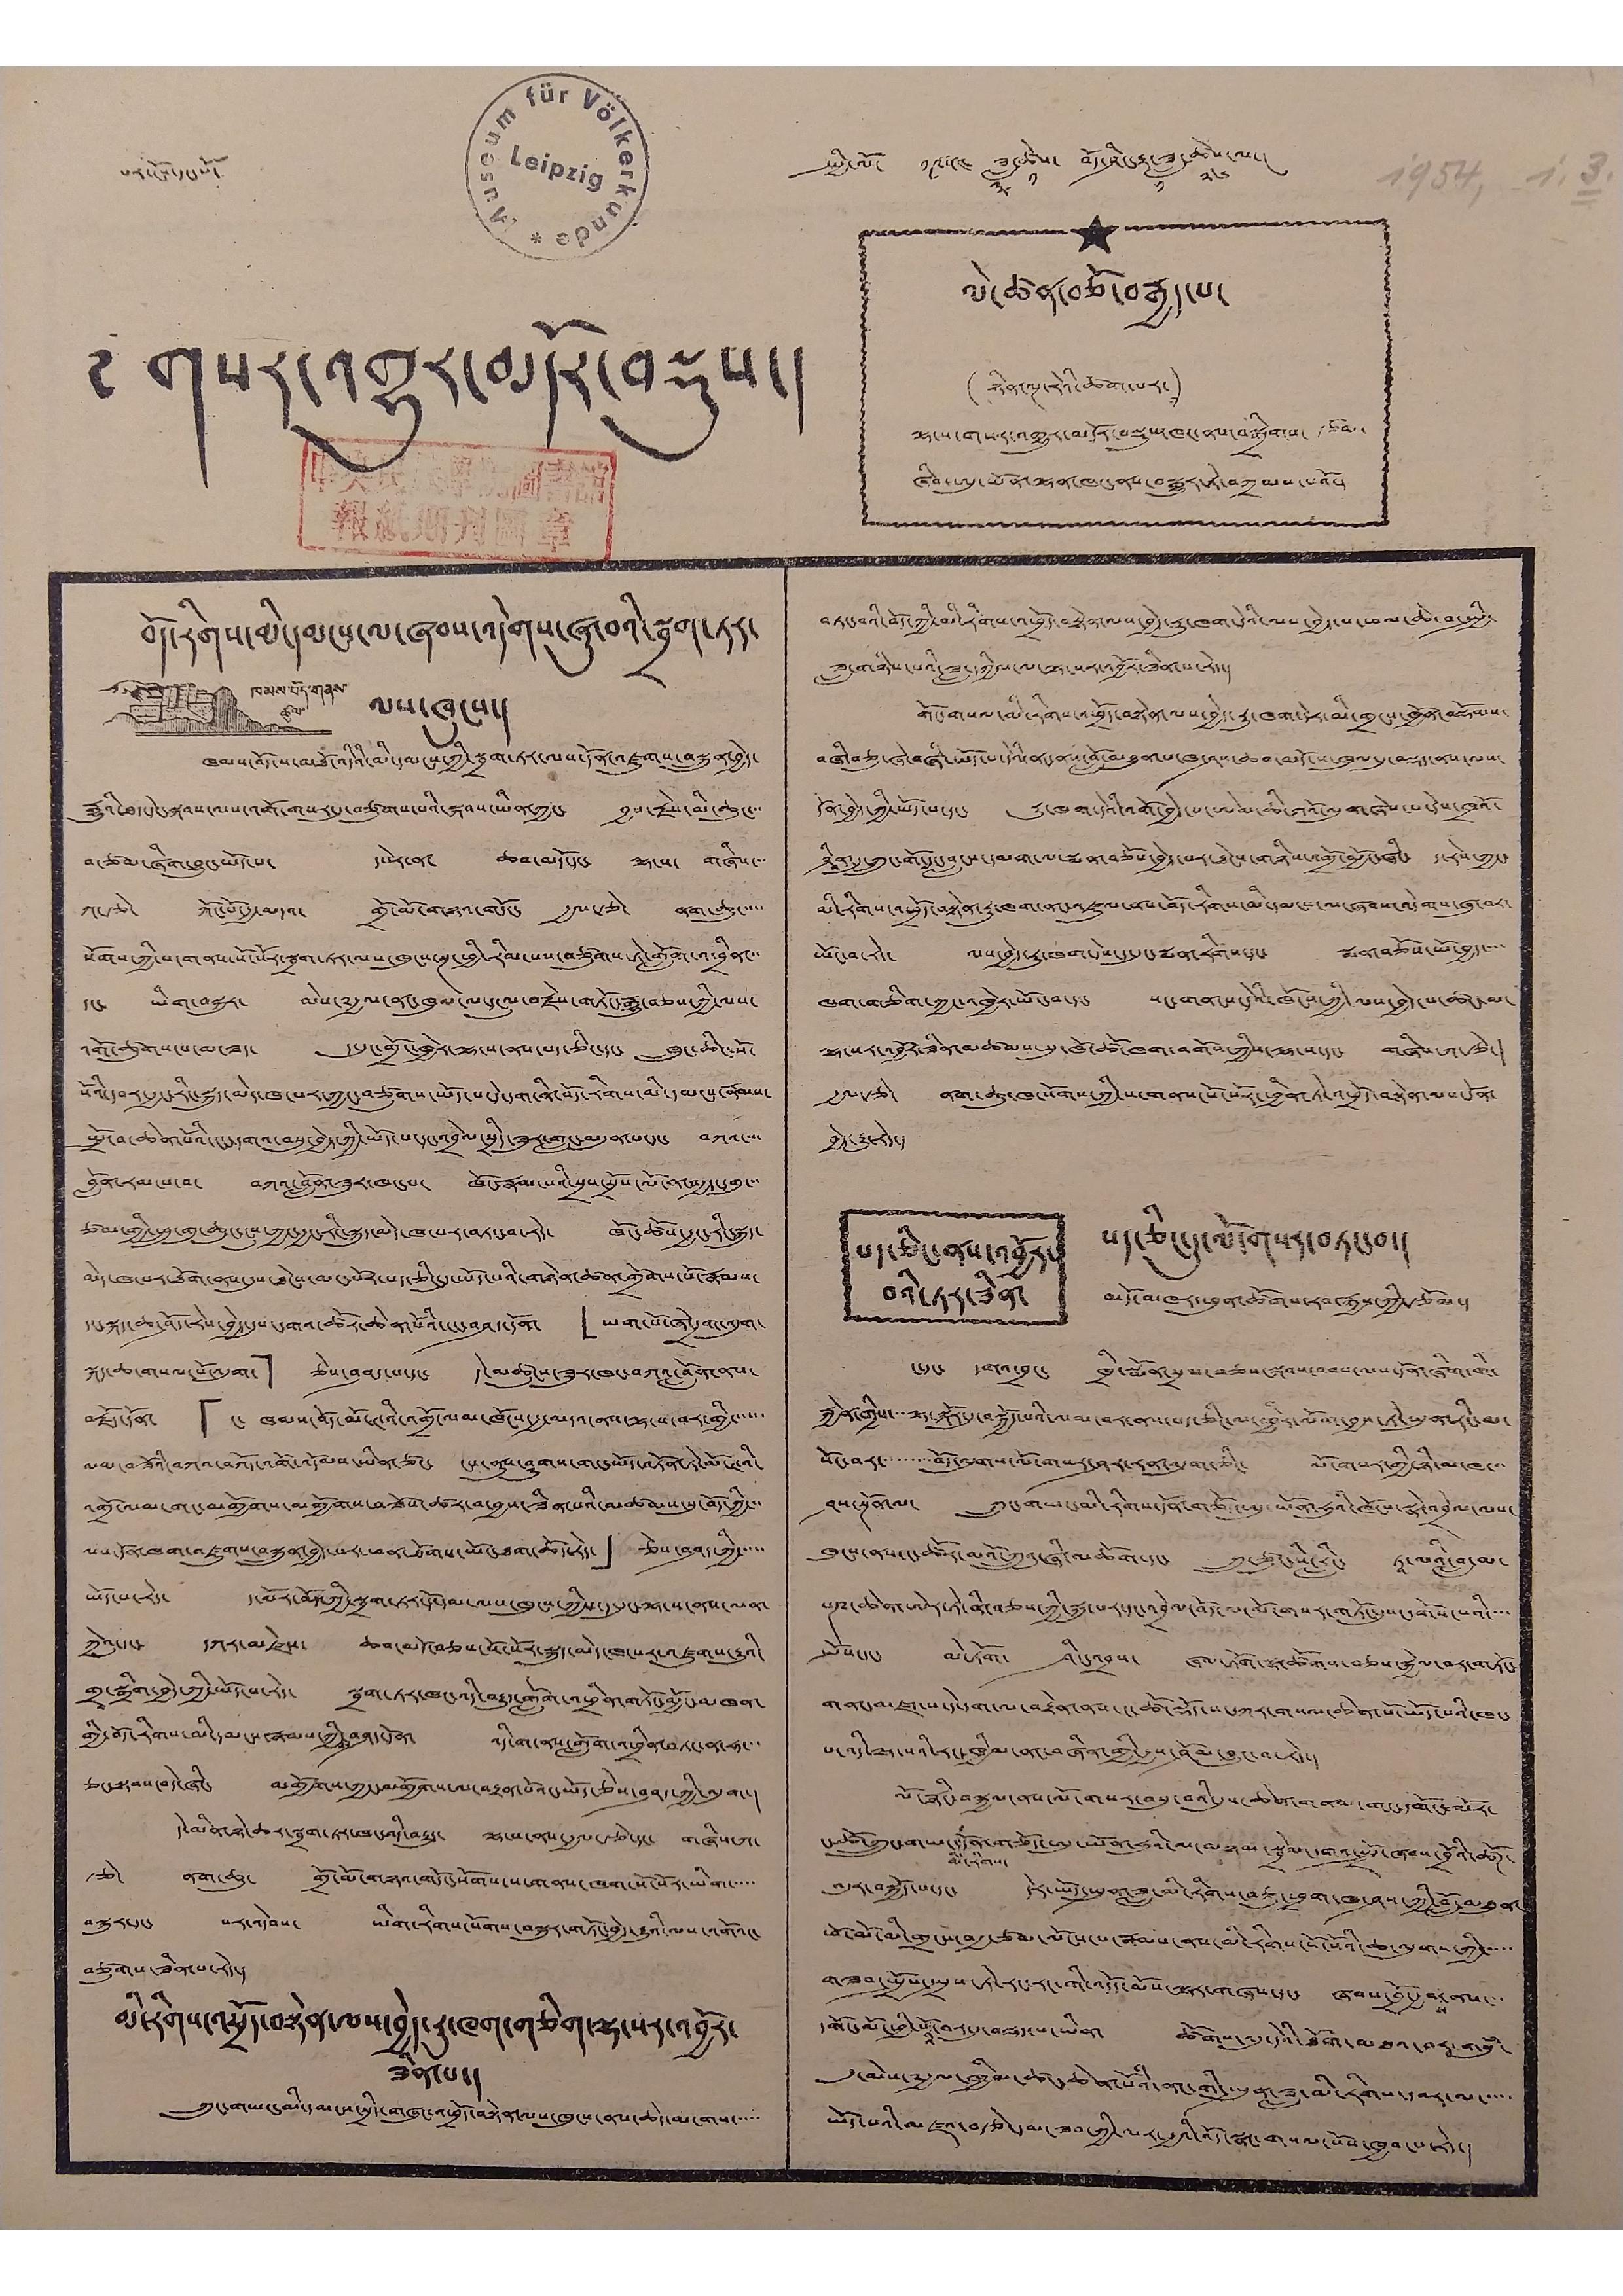པར་ངོས་དང་པོ་ སྤྱི་ལོ་ ༡༩༥༤ ཟླ་
༣
ཚེས་
༡
བོད་ཤིང་རྟ་ཟླ་
༡
ཚེས་
༢༦
ལ་།
༅ གསར་འགྱུར་མདོར་བསྡུས་།
ལེ་ཚན་བཅོ་བརྒྱད་པ་
(ཉིན་ལྔ་རེའི་ཚག་པར་)
ལྷ་ས་གསར་འགྱུར་མདོར་བསྡུས་ཁང་ནས་བསྒྲིགས་ རྩོམ་
ཞིབ་ཨུ་ཡོན་ལྷན་ཁང་ནས་བསྒྱུར་ཏེ་བཀྲམས་པའོ་།
བོད་རིགས་མི་དམངས་ལ་ཞལ་འདེགས་ཞུ་བའི་སྦྲག་ཏར་
ལས་ཁུངས་།
ཁམས་བོད་གཞས་
ཚུལ་
ཁམས་བོད་ས་མཐོ་འདིའི་མི་དམངས་ཀྱི་སྦྲག་ཏར་ལས་དོན་འཛུགས་བསྐྲུན་བྱེད་
རྒྱུའི་ཐད་དེང་སྐབས་ལས་འགོ་གསར་དུ་བཙུགས་པའི་སྐབས་ཡིན་ཀྱང་ བྱས་རྗེས་མི་ཆུང་་་
བ་ཙམ་ཞིག་བྱུང་ཡོད་པ་ དཔེར་ན་ ཆབ་མདོ་དང་ ལྷ་ས་ གཞིས་་
ཀ་རྩེ་ ཀོང་པོ་རྒྱ་མདའ་ གྲོ་མོ་གཉའ་གདོང་ རྒྱལ་རྩེ་ ནག་ཆུ་་་་་
སོགས་ཀྱི་ས་གནས་སོ་སོར་སྦྲག་ཏར་ལས་ཁུངས་སྔ་ཕྱི་རིམ་པས་བཙུགས་ཏེ་གློག་འཕྲིན་་་
དང་ ཡིག་བསྐུར་ མེས་༸རྒྱལ་ནང་ཁུལ་ལ་དངུལ་བརྗེས་གཏོང་རྒྱུ་བཅས་ཀྱི་ལས་
འགོ་ཚུགས་པ་མ་ཟད་ ད་དུང་གྲོང་ཁྱེར་ལྷ་ས་ནས་པད་ཅིང་ ཁྲུང་ཆིང་སོ་
སོའི་དབར་རྒྱང་རིང་སྐུད་མེད་ཁ་པར་ཀྱང་བཙུགས་ཡོད་པ་དེ་དག་ནི་བོད་རིགས་མི་དམངས་རྣམས་
སྤྲོ་བ་ཆེན་པོའི་ངང་དགའ་བསུ་བྱེད་ཀྱི་ཡོད་པ་དང་འབྲེལ་སྲིད་ཟུར་གླང་མདུན་པ་དང་ བཀའ་་
བློན་རམ་པ་བ་ བཀའ་བློན་ཟུར་ཁང་པ་ ཁོང་རྣམ་པའི་སྲས་སྲོས་ལོ་ན་བརྒྱད་དགུ་་
ཙམ་གྱི་ཕྲུ་གུ་ཆུང་ངུས་ཀྱང་རྒྱང་རིང་སྐུད་མེད་ཁ་པར་བཏང་བ་རེད་ ཁོང་ཚོས་རྒྱང་རིང་སྐུད་
མེད་ཁ་པར་ཐོག་ནས་དུས་ཐེངས་མང་པོར་པད་ཅིང་དུ་ཡོད་པའི་གཉེན་ཚན་གྲོགས་པོ་རྣམས་
དང་སྐད་ཆ་ཤོད་རེས་བྱེད་དུས་དགའ་ཚོར་ཆེན་པོའི་ངང་བཤད་དོན་ 「ཡག་པོ་ཞེ་དྲག་འདུག་
སྐད་ཆ་གསལ་པོ་འདུག་」 ཅེས་བཤད་པ་དང་ དེ་མཚུངས་ཟུར་ཁང་བཀའ་བློན་ནས་
བརྗོད་དོན་ 「ང་ ཁམས་བོད་མོ་ཊའི་འགྲོ་ལམ་ཁོངས་རྒྱ་མདའ་ནས་ལྷ་ས་བར་གྱི་་་་་་
ལམ་བཟོའི་བཀའ་བཀོད་འགོ་འདོམས་ཡིན་ཙང་ ངས་ནུས་ཤུགས་གང་ཡོད་བཏོན་ཏེ་མོ་ཊའི་
འགྲོ་ལམ་གང་མགྱོགས་མགྱོགས་བཟོས་ཚར་བ་བྱས་ཟིན་པའི་མཚམས་སུ་བོད་ཀྱི་་་
ལས་དོན་ཁག་འཛུགས་བསྐྲུན་བྱེད་པར་ཕན་ཐོགས་ཡོང་ཐག་ཆོད་རེད་」 ཅེས་བཤད་ཀྱི་་་་་
ཡོད་པ་རེད་ ད་ལོར་བོད་ཀྱི་སྦྲག་ཏར་དོ་དམ་ལས་ཁུངས་ཀྱིས་ད་དུང་ལྷ་ས་ནས་ལན་
ཀྲེའུ་དང་ དཀར་མཛེས་ ཆབ་མདོ་བཅས་སོ་སོར་སྐུད་མེད་ཁ་པར་འཛུགས་རྒྱུའི་
གྲྭ་སྒྲིག་བྱེད་ཀྱི་ཡོད་པ་རེད་ སྦྲག་ཏར་ཁང་འདི་བརྒྱུད་གློག་འཕྲིན་གཏོང་མྱོང་མཁན་
གྱི་བོད་རིགས་མི་དམངས་རྣམས་ཀྱིས་བཤད་དོན་ འདི་ག་ནས་གློག་འཕྲིན་བཏང་ན་ཧ་་་
ཅང་སྟབས་བདེ་ཞིང་ མགྱོགས་ཀྱང་མགྱོགས་ལ་བརྟན་པོའང་ཡོད་ཅེས་བཤད་ཀྱི་འདུག་།
དེ་མིན་ཉེ་ཆར་སྦྲག་ཏར་ཁང་འདི་བརྒྱུད་ ལྷ་ས་ནས་རྒྱལ་རྩེ་དང་ གཞིས་ཀ་
རྩེ་ ནག་ཆུ་ གྲོ་མོ་གཉའ་གདོང་སོགས་ས་གནས་ཁག་སོ་སོར་ཡིག་་་་་
བསྐུར་དང་ པར་འདེབས་ ཡིག་རིགས་སོགས་བསྐུར་གཏོང་བྱེད་རྒྱུའི་ལས་འགོའང་
བཙུགས་ཟིན་པ་རེད་།
མི་རིགས་འཕྲོད་བསྟེན་ལས་བྱེད་རུ་ཁག་གཅིག་ལྷ་སར་འབྱོར་
ཟིན་པ་།
ཀྲུང་གཡང་མི་དམངས་སྲིད་གཞུང་འཕྲོད་བསྟེན་ལས་ཁུངས་ནས་ཆེད་མངགས་་་་་
བཏང་བའི་བོད་ཀྱི་མི་རིགས་འཕྲོད་བསྟེན་ལས་བྱེད་རྒྱུ་ཁག་དེའི་ལས་བྱེད་པ་ཕལ་ཆེ་བ་སྤྱི་
ཟླ་གཉིས་པའི་ཟླ་དཀྱིལ་ལ་ལྷ་སར་འབྱོར་ཟིན་པ་རེད་།
གོང་གསལ་མི་རིགས་འཕྲོད་བསྟེན་ལས་བྱེད་རུ་ཁག་དེར་མི་གྲངས་ཁྱོན་བསྡོམས་
བཞི་བཅུ་ཞེ་བཞི་ཡོད་པ་དེའི་ནང་ནས་བློ་མཐུན་པ་ཁ་ཤས་ཆབ་མདོ་ས་ཁུལ་དུ་བསྡད་ནས་ལས་
དོན་བྱེད་ཀྱི་ཡོད་པ་དང་ རུ་ཁག་དེའི་འགོ་བྱེད་པ་ཨེམ་ཆི་གའོ་ལུན་ཞེས་པ་དེས་ཁའོ་
ཤིན་དུ་ཀྲུང་གོ་དང་བླངས་དམག་ལ་སྨན་བཅོས་བྱེད་པར་ཐེངས་གཉིས་འགྲོ་མྱོང་ཞིང་ ད་རེས་ཀྱང་
མི་རིགས་འཕྲོད་བསྟེན་རུ་ཁག་ནང་འཛུལ་ནས་བོད་རིགས་མི་དམངས་ལ་ཞབས་འདེགས་ཞུ་བར་
ཡོང་བ་རེད་ ལས་བྱེད་རུ་ཁག་དེས་ད་དུང་སྨན་རིགས་དང་ སྨན་བཅོས་ཡོ་བྱད་་་་
ཁག་གཅིག་ཀྱང་འཁྱེར་ཡོང་བ་དང་ སང་གནངས་དེའི་ཁོངས་ཀྱི་ལས་བྱེད་པ་ཚང་མ་
ལྷ་སར་འབྱོར་ཟིན་མཚམས་སུ་ཁོ་ཚོ་ཁག་བགོས་ཀྱིས་ལྷ་ས་དང་ གཞིས་ཀ་རྩེ་།
རྒྱལ་རྩེ་ ནག་ཆུ་ཁ་སོགས་ཀྱི་ས་གནས་སོ་སོར་ཕྱིན་ཏེ་འཕྲོད་བསྟེན་ལས་དོན་
བྱེད་རྒྱུ་རེད་།
པད་ཅིང་ནས་འབྱོར་
བའི་ཏར་ཟིན་
པད་ཅིང་དུ་ལོ་གསར་བཏང་བ་།
མདོ་མཁར་ཕུན་ཚོགས་རབ་རྒྱས་ཀྱི་རྩོམ་།
ང་དང་ དགའ་བྲང་ ཁྲི་སྨོན་སྲམ་བཅས་སྐབས་བབས་ལས་དོན་ཞིག་གི་
རྐྱེན་གྱིས་་་ལྟ་སྐོར་དུ་བསྐྱོད་པའི་ལམ་བར་ནས་པད་ཅིང་ལ་ཕྱིར་ལོག་བྱས་ཏེ་ཡུན་རིང་མ་
སོང་བར་་་་་་་་་བོད་ལུགས་ལོ་གསར་ཤར་རན་འདུག་ཅིང་ ལོ་གསར་གྱི་ཉི་མ་ཁ་་་
ཤས་སྔོན་ལ་ ཀྲུང་གཡང་མི་རིགས་དོན་གཙོ་ཨུ་ཡོན་ཧུའི་ཁོངས་སྣེ་འབྲེལ་ལས་
ཁུངས་ནས་ང་ཚོར་མའོ་ཀྲུའུ་ཞི་མཆོག་དང་ སྲུ་ཙུང་སི་རླིང་ ཏཱ་ལའི་བླ་མ་
པཎ་ཆེན་ཨེར་ཏེ་ནི་བཅས་ཀྱི་སྐུ་པར་དང་འབྲེལ་བོད་ལ་གསར་གཏོང་དུས་དགོས་པའི་་་་
སྤོས་དང་ མེ་ཏོག་ ཤིང་འབྲས་ ཞལ་ཏོག་སྣ་ཚོགས་བཅས་སྐྱེལ་བར་གཏོང་
གནང་མཛད་པ་དེ་དག་ལ་བརྟེན་ནས་ང་ཚོ་སྡོད་ས་དཀར་གསལ་ཆེན་པོ་ཡོད་པའི་ཁང་
པ་འདི་ལྷ་སའི་རང་ཁྱིམ་ནང་བཞིན་གྱི་རྒྱས་ཤོམ་བྱུང་བ་རེད་།
ལོ་རྙིང་བསྐྱལ་ནས་ལོ་གསར་བསུ་བའི་དུས་ཆེན་གནམ་གང་དགོང་མོར་
ང་ཚོ་ཀྲུང་གཡང་
མི་རིགས་
དོན་གཅོད་ཨུ་ཡོན་ཧུའི་ལ་མཉམ་སྦྲེལ་དགའ་སྤྲོ་ཞབས་བྲོའི་ཚོཊ་
འདུར་བསྐྱོད་པ་དང་ དེར་ཡོད་སྤུན་ཟླ་མི་རིགས་བཅུ་ཕྲག་ཁ་ཤས་ཀྱི་བློ་མཐུན་
ཕོ་མོ་མི་གྲངས་བརྒྱ་ཙམ་ལོངས་པ་རྣམས་ནས་མི་རིགས་སོ་སོའི་ཆ་ལུགས་ཀྱི་་་་་
གཟབ་སྤྲོས་སྤྲས་ཏེ་རང་རང་གི་འདོད་མོས་ལྟར་གཞས་དང་ ཞབས་བྲོ་རྒྱབ
ས
་ནས་་་
དགོང་མོ་ཕྱི་པོ
འི
་བར་དུ་བསྡད་པ་ཡིན་ ཚོགས་འདུ་དེའི་ཐོག་མཐའ་བར་གསུཾ་
དུ་མེས་༸རྒྱལ་ཁྱིམ་ཚང་ཆེན་པོའི་ནང་གི་སྤུན་ཟླ་མི་རིགས་དབར་ལ་་་་་
ཡོད་པའི་མཛའ་བརྩེ་དམ་ཟབ་ཀྱི་ལར་རྒྱའི་འོད་སྣང་གསལ་པོས་ཁྱབ་པ་རེད་།
